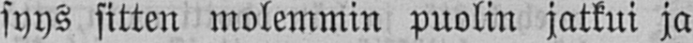syys sitten molemmin puolin jatkui ja
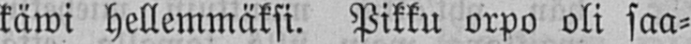käwi hellemmäksi. Pikku orpo oli saa-
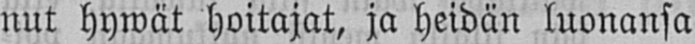nut hywät hoitajat, ja heidän luonansa
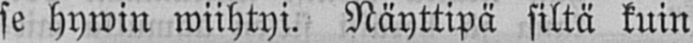se hywin wiihtyi. Näyttipä siltä kuin
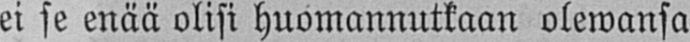ei se enää olisi huomannutkaan olemansa
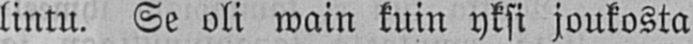lintu. Se oli wain kuin yksi joukosta
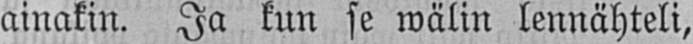ainakin. Ja kun se wälin lennähteli,
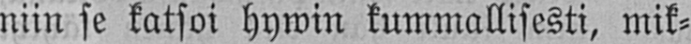niin se katsoi hywin kummallisesti, mik-
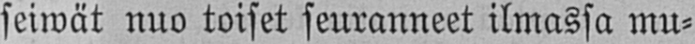seiwät nuo toiset seuranneet ilmassa mu-
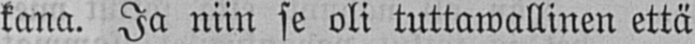kana. Ja niin se oli tuttawallinen että
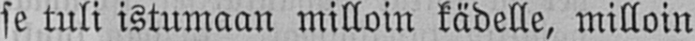se tuli istumaan milloin kädelle, milloin
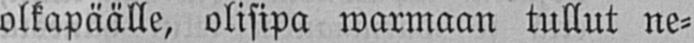olkapäälle, olisipa warmaan tullut ne-
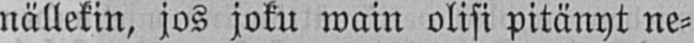nällekin, jos joku wain olisi pitänyt ne-
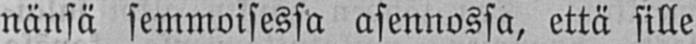nänsä semmoisessa asennossa, että sille
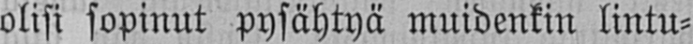olisi sopinut pysähtyä muidenkin lintu-
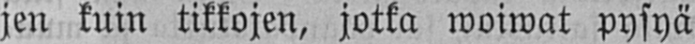jen kuin tikkojen, jotka woiwat pysyä
